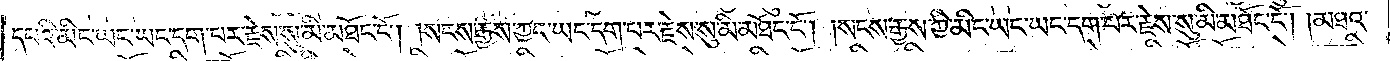དཔའི་མིང་ཡང་ཡང་དག་པར་རྗེས་སུ་མི་མཐོང་ངོ༌། །སངས་རྒྱས་ཀྱང་ཡང་དག་པར་རྗེས་སུ་མི་མཐོང་ངོ༌། །སངས་རྒྱས་ཀྱི་མིང་ཡང་ཡང་དག་པར་རྗེས་སུ་མི་མཐོང་ངོ༌། །མཐའ་
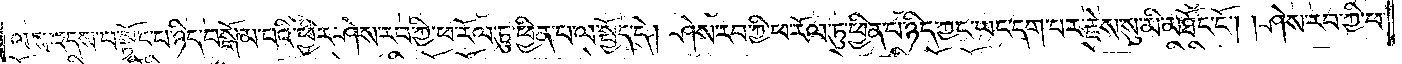ལས་འདས་པ་སྟོང་པ་ཉིད་བསྒོམ་པའི་ཕྱིར་ཤེས་རབ་ཀྱི་ཕ་རོལ་ཏུ་ཕྱིན་པ་ལ་སྤྱོད་དེ། ཤེས་རབ་ཀྱི་ཕ་རོལ་ཏུ་ཕྱིན་པ་ཉིད་ཀྱང་ཡང་དག་པར་རྗེས་སུ་མི་མཐོང་ངོ༌། །ཤེས་རབ་ཀྱི་ཕ་
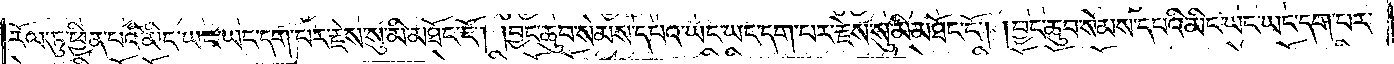རོལ་ཏུ་ཕྱིན་པའི་མིང་ཡང་ཡང་དག་པར་རྗེས་སུ་མི་མཐོང་ངོ༌། །བྱང་ཆུབ་སེམས་དཔའ་ཡང་ཡང་དག་པར་རྗེས་སུ་མི་མཐོང་ངོ༌། །བྱང་ཆུབ་སེམས་དཔའི་མིང་ཡང་ཡང་དག་པར་
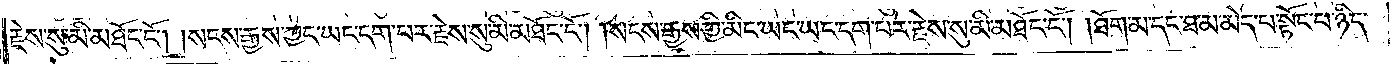རྗེས་སུ་མི་མཐོང་ངོ༌། །སངས་རྒྱས་ཀྱང་ཡང་དག་པར་རྗེས་སུ་མི་མཐོང་ངོ༌། །སངས་རྒྱས་ཀྱི་མིང་ཡང་ཡང་དག་པར་རྗེས་སུ་མི་མཐོང་ངོ༌། །ཐོག་མ་དང་ཐ་མ་མེད་པ་སྟོང་པ་ཉིད་
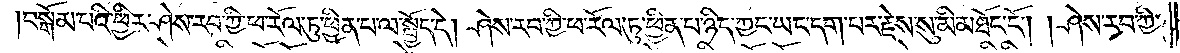བསྒོམ་པའི་ཕྱིར་ཤེས་རབ་ཀྱི་ཕ་རོལ་ཏུ་ཕྱིན་པ་ལ་སྤྱོད་དེ། ཤེས་རབ་ཀྱི་ཕ་རོལ་ཏུ་ཕྱིན་པ་ཉིད་ཀྱང་ཡང་དག་པར་རྗེས་སུ་མི་མཐོང་ངོ༌། །ཤེས་རབ་ཀྱི་
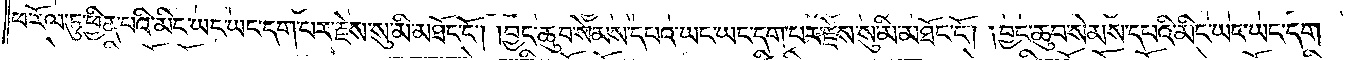ཕ་རོལ་ཏུ་ཕྱིན་པའི་མིང་ཡང་ཡང་དག་པར་རྗེས་སུ་མི་མཐོང་ངོ༌། །བྱང་ཆུབ་སེམས་དཔའ་ཡང་ཡང་དག་པར་རྗེས་སུ་མི་མཐོང་ངོ༌། །བྱང་ཆུབ་སེམས་དཔའི་མིང་ཡང་ཡང་དག་
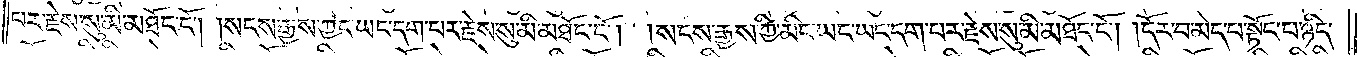པར་རྗེས་སུ་མི་མཐོང་ངོ༌། །སངས་རྒྱས་ཀྱང་ཡང་དག་པར་རྗེས་སུ་མི་མཐོང་ངོ༌། །སངས་རྒྱས་ཀྱི་མིང་ཡང་ཡང་དག་པར་རྗེས་སུ་མི་མཐོང་ངོ༌། །དོར་བ་མེད་པ་སྟོང་པ་ཉིད་
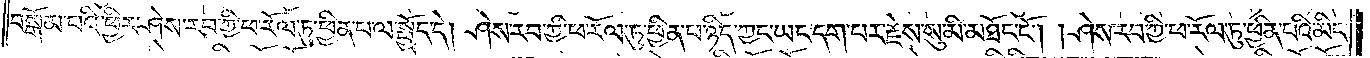བསྒོམ་པའི་ཕྱིར་ཤེས་རབ་ཀྱི་ཕ་རོལ་ཏུ་ཕྱིན་པ་ལ་སྤྱོད་དེ། ཤེས་རབ་ཀྱི་ཕ་རོལ་ཏུ་ཕྱིན་པ་ཉིད་ཀྱང་ཡང་དག་པར་རྗེས་སུ་མི་མཐོང་ངོ༌། །ཤེས་རབ་ཀྱི་ཕ་རོལ་ཏུ་ཕྱིན་པའི་མིང་
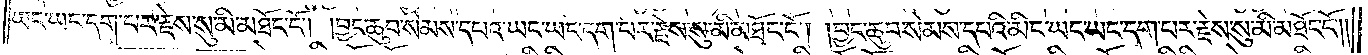ཡང་ཡང་དག་པར་རྗེས་སུ་མི་མཐོང་ངོ༌། །བྱང་ཆུབ་སེམས་དཔའ་ཡང་ཡང་དག་པར་རྗེས་སུ་མི་མཐོང་ངོ༌། །བྱང་ཆུབ་སེམས་དཔའི་མིང་ཡང་ཡང་དག་པར་རྗེས་སུ་མི་མཐོང་ངོ༌༎
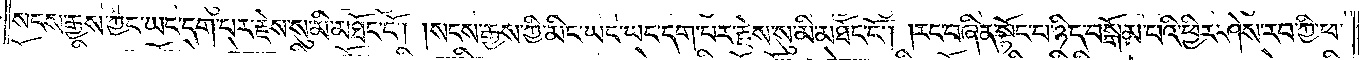སངས་རྒྱས་ཀྱང་ཡང་དག་པར་རྗེས་སུ་མི་མཐོང་ངོ༌། །སངས་རྒྱས་ཀྱི་མིང་ཡང་ཡང་དག་པར་རྗེས་སུ་མི་མཐོང་ངོ༌། །རང་བཞིན་སྟོང་པ་ཉིད་བསྒོམ་པའི་ཕྱིར་ཤེས་རབ་ཀྱི་ཕ་
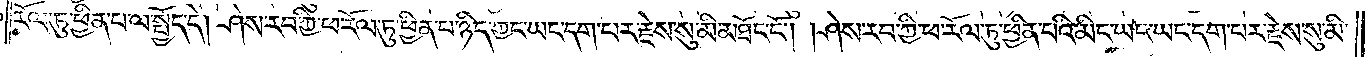རོལ་ཏུ་ཕྱིན་པ་ལ་སྤྱོད་དེ། ཤེས་རབ་ཀྱི་ཕ་རོལ་ཏུ་ཕྱིན་པ་ཉིད་ཀྱང་ཡང་དག་པར་རྗེས་སུ་མི་མཐོང་ངོ༌། །ཤེས་རབ་ཀྱི་ཕ་རོལ་ཏུ་ཕྱིན་པའི་མིང་ཡང་ཡང་དག་པར་རྗེས་སུ་མི་
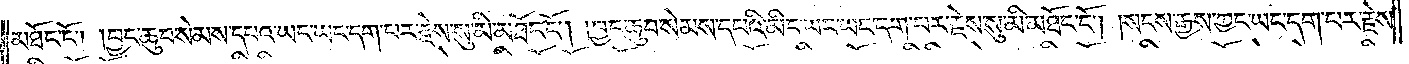མཐོང་ངོ༌། །བྱང་ཆུབ་སེམས་དཔའ་ཡང་ཡང་དག་པར་རྗེས་སུ་མི་མཐོང་ངོ༌། །བྱང་ཆུབ་སེམས་དཔའི་མིང་ཡང་ཡང་དག་པར་རྗེས་སུ་མི་མཐོང་ངོ༌། །སངས་རྒྱས་ཀྱང་ཡང་དག་པར་རྗེས་
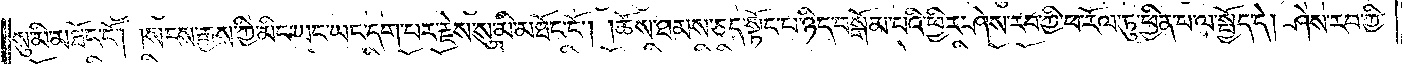སུ་མི་མཐོང་ངོ༌། །སངས་རྒྱས་ཀྱི་མིང་ཡང་ཡང་དག་པར་རྗེས་སུ་མི་མཐོང་ངོ༌། །ཆོས་ཐམས་ཅད་སྟོང་པ་ཉིད་བསྒོམ་པའི་ཕྱིར་ཤེས་རབ་ཀྱི་ཕ་རོལ་ཏུ་ཕྱིན་པ་ལ་སྤྱོད་དེ། ཤེས་རབ་ཀྱི་
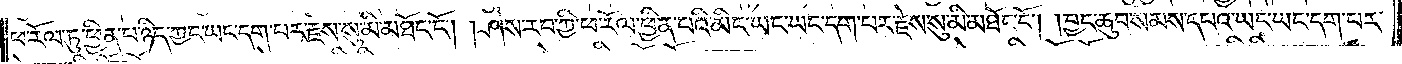ཕ་རོལ་ཏུ་ཕྱིན་པ་ཉིད་ཀྱང་ཡང་དག་པར་རྗེས་སུ་མི་མཐོང་ངོ༌། །ཤེས་རབ་ཀྱི་ཕ་རོལ་ཕྱིན་པའི་མིང་ཡང་ཡང་དག་པར་རྗེས་སུ་མི་མཐོང་ངོ༌། །བྱང་ཆུབ་སེམས་དཔའ་ཡང་ཡང་དག་པར་
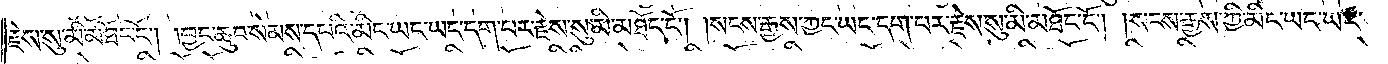རྗེས་སུ་མི་མཐོང་ངོ༌། །བྱང་ཆུབ་སེམས་དཔའི་མིང་ཡང་ཡང་དག་པར་རྗེས་སུ་མི་མཐོང་ངོ༌། །སངས་རྒྱས་ཀྱང་ཡང་དག་པར་རྗེས་སུ་མི་མཐོང་ངོ༌། །སངས་རྒྱས་ཀྱི་མིང་ཡང་ཡང་
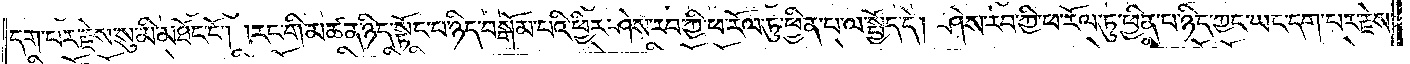དག་པར་རྗེས་སུ་མི་མཐོང་ངོ༌། །རང་གི་མཚན་ཉིད་སྟོང་པ་ཉིད་བསྒོམ་པའི་ཕྱིར་ཤེས་རབ་ཀྱི་ཕ་རོལ་ཏུ་ཕྱིན་པ་ལ་སྤྱོད་དེ། ཤེས་རབ་ཀྱི་ཕ་རོལ་ཏུ་ཕྱིན་པ་ཉིད་ཀྱང་ཡང་དག་པར་རྗེས་
